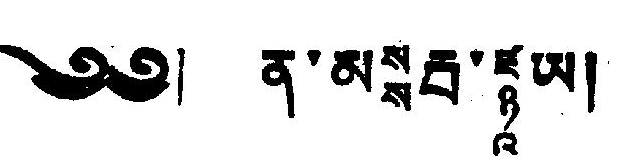༄༅། ན་མསྶརྦ་ཛྙཱཡ།
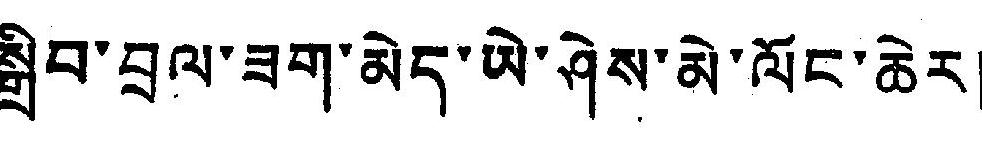སྒྲིབ་བྲལ་ཟག་མེད་ཡེ་ཤེས་མེ་ལོང་ཆེར། །
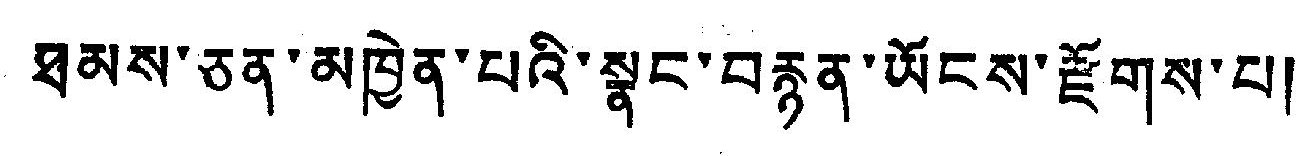ཐམས་ཅན་མཁྱེན་པའི་སྣང་བརྙན་ཡོངས་རྫོགས་པ། །
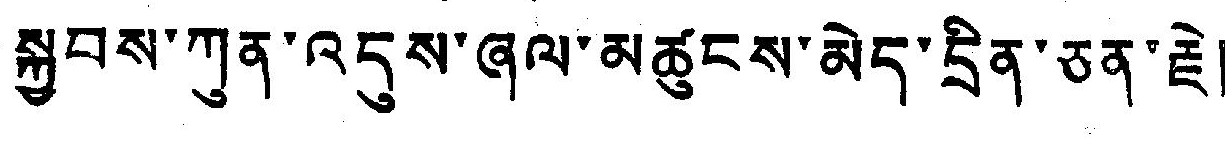སྐྱབས་ཀུན་འདུས་ཞལ་མཚུངས་མེད་དྲིན་ཅན་རྗེ། །
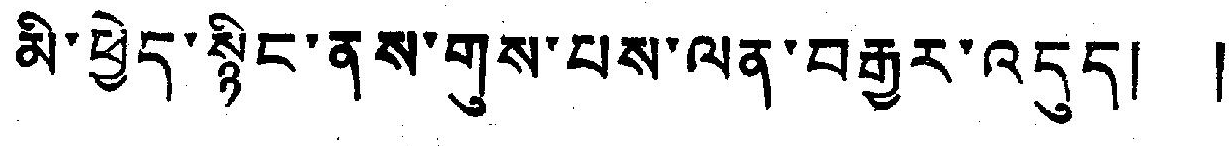མི་ཕྱེད་སྙིང་ནས་གུས་པས་ལན་བརྒྱར་འདྲད། །
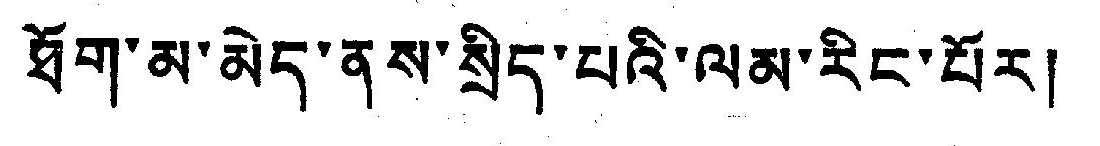ཐོག་མ་མེད་ནས་སྲིད་པའི་ལམ་རིང་པོར། །
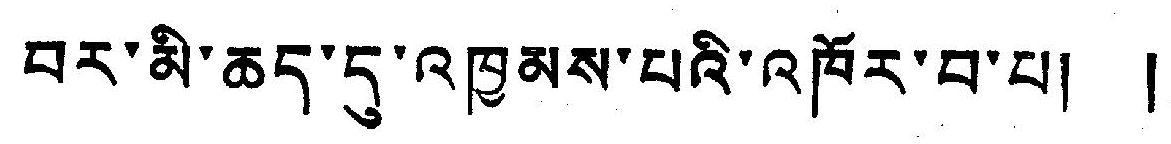བར་མི་ཆད་དུ་འཁྱམས་པའི་འཁོར་བ་པ། །
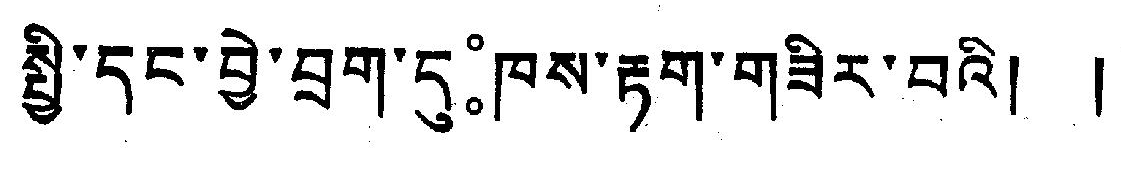སྤྲི་དང་བྱེ་བྲག་དུཿཁས་རྟག་གཟིར་བའི། །
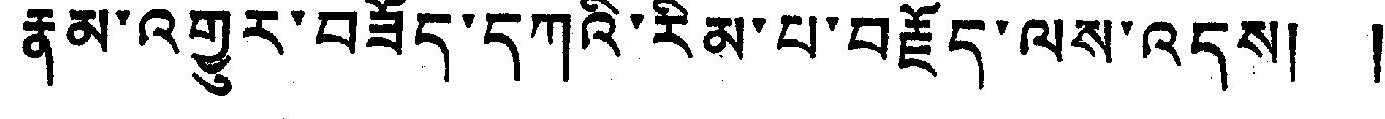རྣམ་འགྱུར་བཟོད་དཀའི་རིམ་པ་བརྗོད་ལས་འདས། །
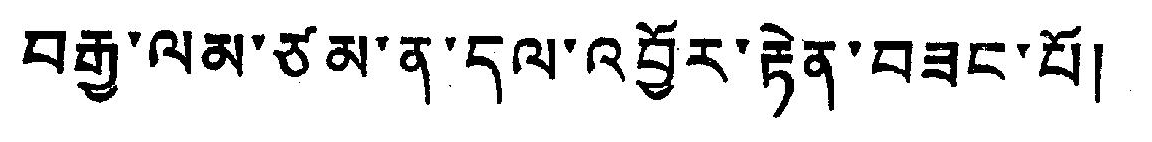བརྒྱ་ལམ་ཙམ་ན་དལ་འབྱོར་རྟེན་བཟང་པོ། །
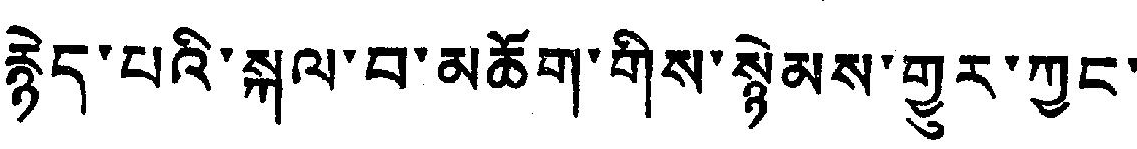རྙེད་པའི་སྐལ་བ་མཆོག་གིས་སྙེམས་གྱུར་ཀྱང་། །
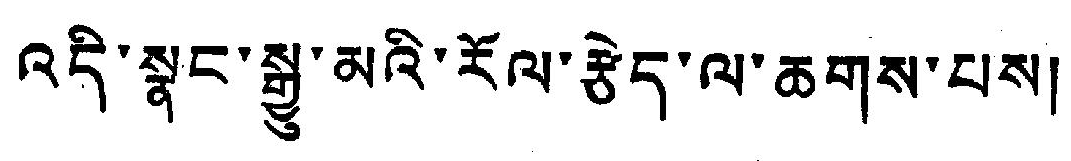འདི་སྣང་སྒྱུ་མའི་རོལ་རྩེད་ལ་ཆགས་པས། །
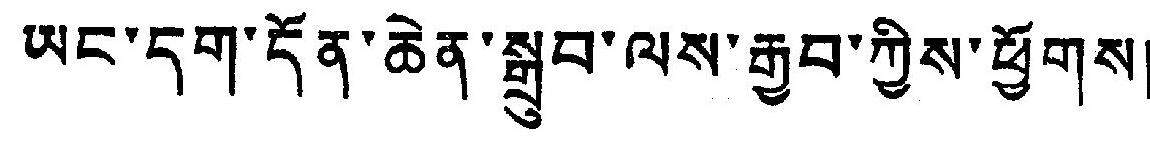ཡང་དག་དོན་ཆེན་སྒྲུབ་ལས་རྒྱབ་ཀྱིས་ཕྱོགས། །
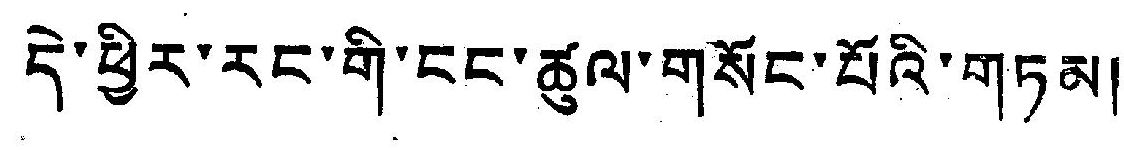དེ་ཕྱིར་རང་གི་ངང་ཚུལ་གསོང་པོའི་གཏམ། །
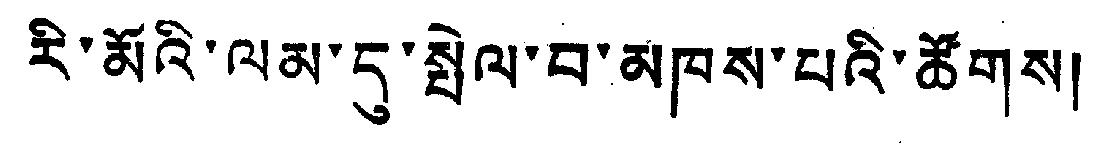རི་མོའི་ལམ་དུ་སྤེལ་བ་མཁས་པའི་ཚོགས། །
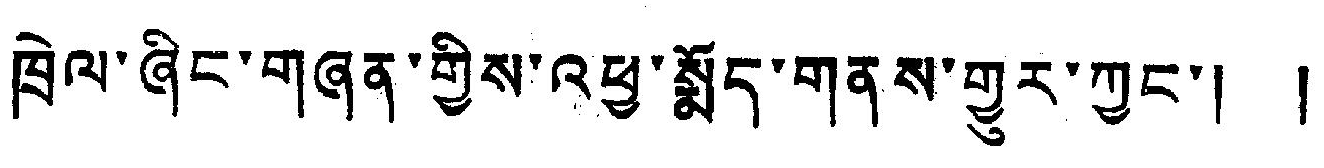ཁྲེལ་ཞིང་གཞན་གྱིས་འཕྱ་སྨོད་གནས་གྱུར་ཀྱང་། །
